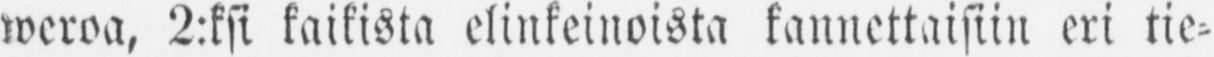weroa, 2:ksi kaikista elinkeinoista kannettaisiin eri tie-
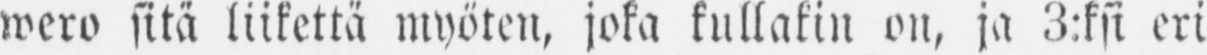wero sitä liikettä myöten, joka kullakin on, ja 3:ksi eri
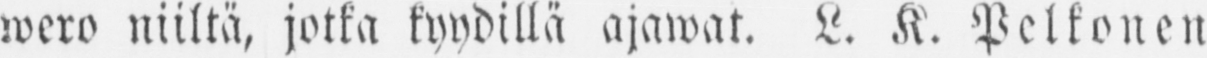wero niiltä, jotka kyydillä ajawat. L. K. Pelkonen
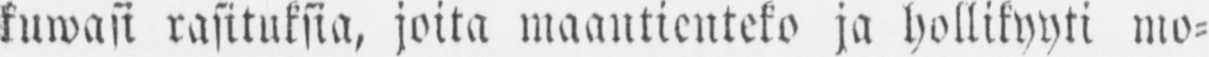kuwasi rasituksia, joita maantienteko ja hollikyyti mo-
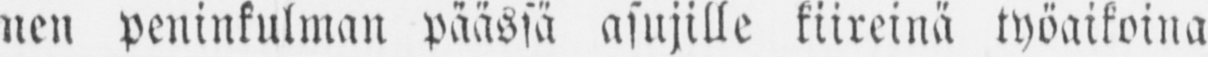nen peninkulman päässä asujille kiireinä työaikoina
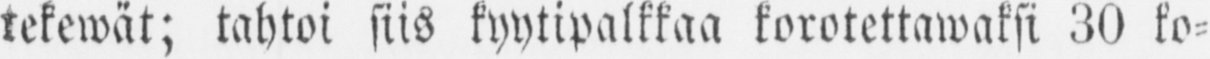tekewät; tahtoi siis kyytipalkkaa korotettawaksi 30 ko-
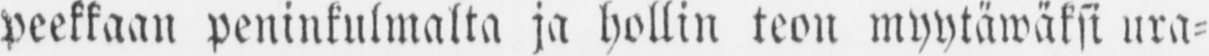peekkaan peninkulmalta ja hollin teon myytäwäksi ura-
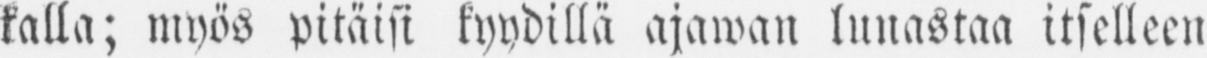kalla; myös pitäisi kyydillä ajawan lunastaa itselleen
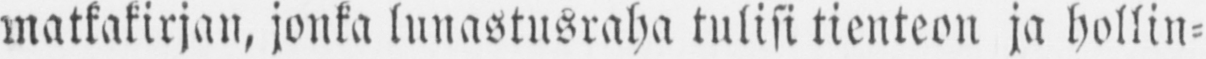matkakirjan, jonka lunastusraha tulisi tienteon ja hollin-
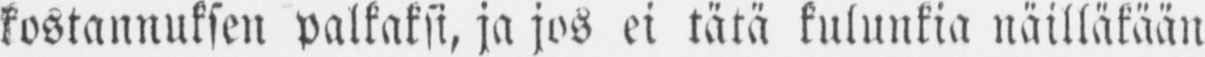kostannuksen palkaksi, ja jos ei tätä kulunkia näilläkään
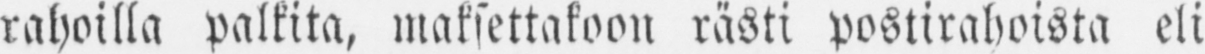rahoilla palkita, maksettakoon rästi postirahoista eli
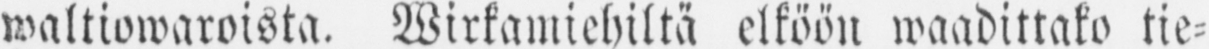waltiowaroista. Wirkamiehiltä elköön waadittako tie-
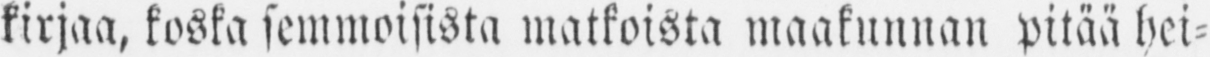kirjaa, koska semmoisista matkoista maakunnan pitää hei-
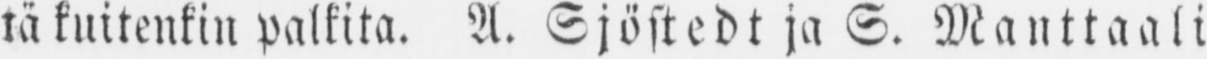tä kuitenkin palkita. A. Sjöstedt ja S. Manttaali
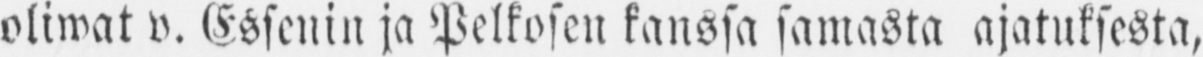oliwat v. Essenin ja Pelkosen kanssa samasta ajatuksesta,
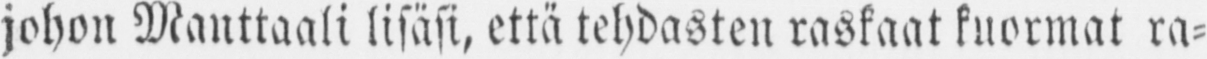johon Manttaali lisäsi, että tehdasten raskaat kuormat ra-
